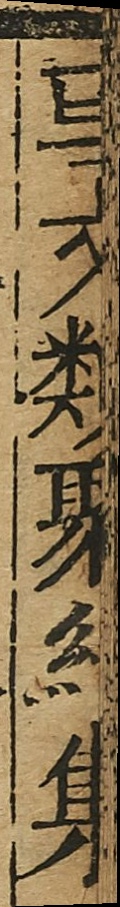事文類聚續集
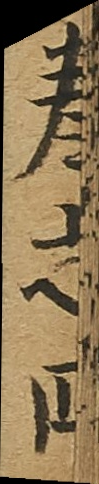卷之四
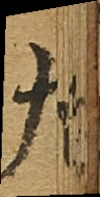九
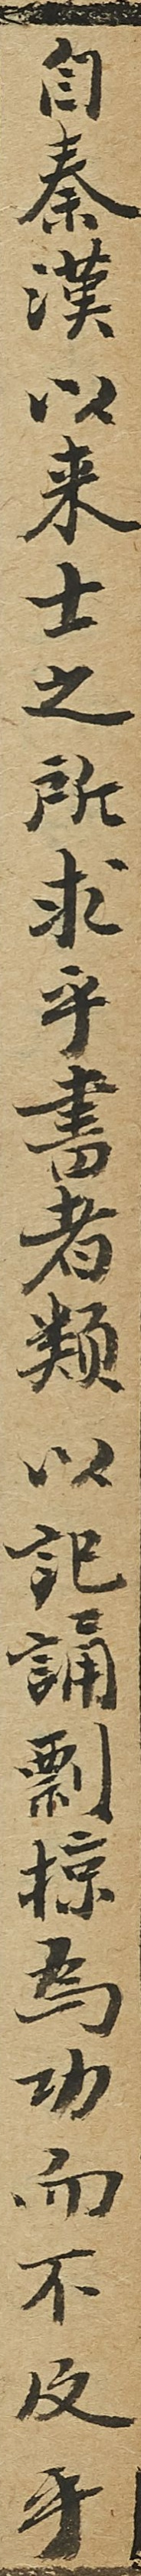自秦漢以来士之所求乎書者類以記誦剽掠為功而不及乎
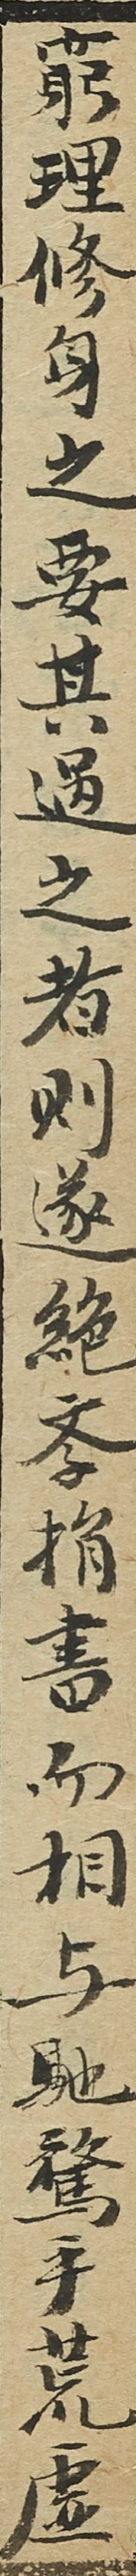窮理修身之要其過之者則遂絶學捐書而相與馳騖乎荒虛
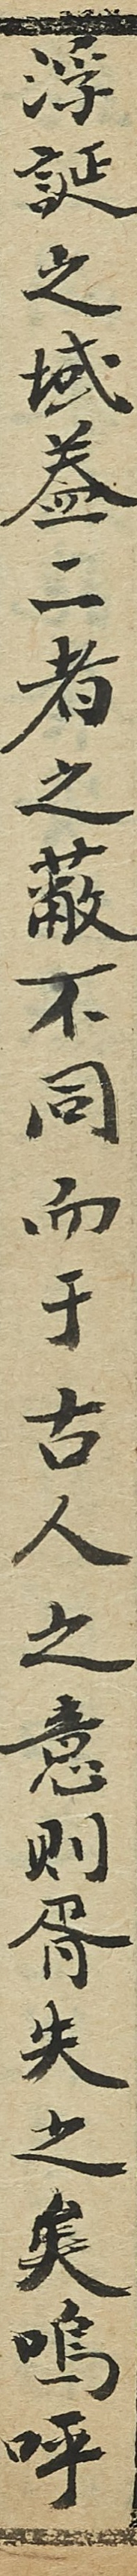浮誕之域蓋二者之蔽不同而于古人之意則胥失之矣嗚呼
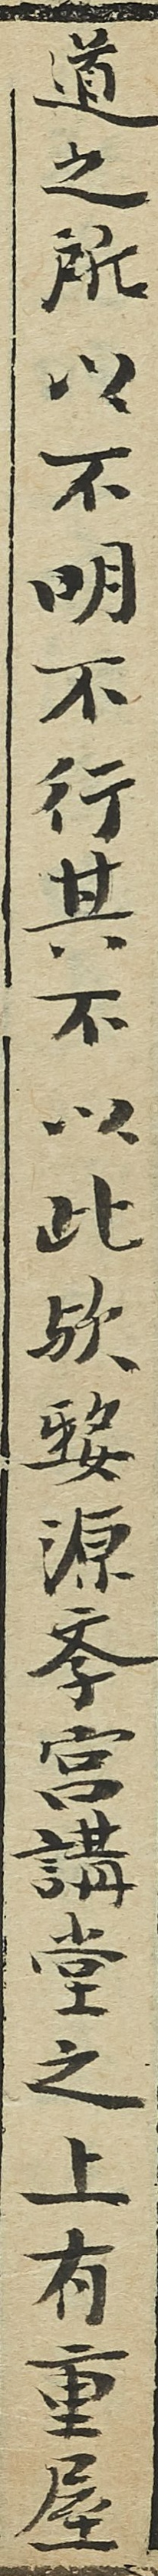道之所以不明不行其不以此歟婺源學宫講堂之上有重屋
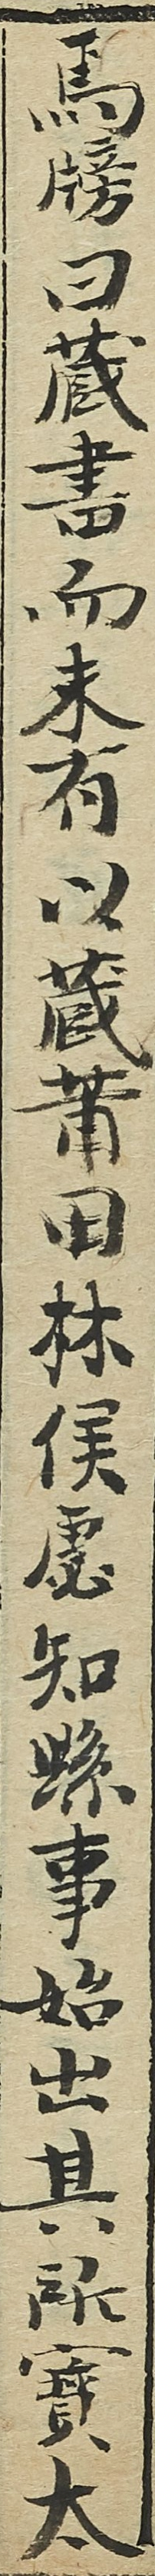焉牓曰藏書而未有以藏莆田林侯虙知縣事始出其所寳太
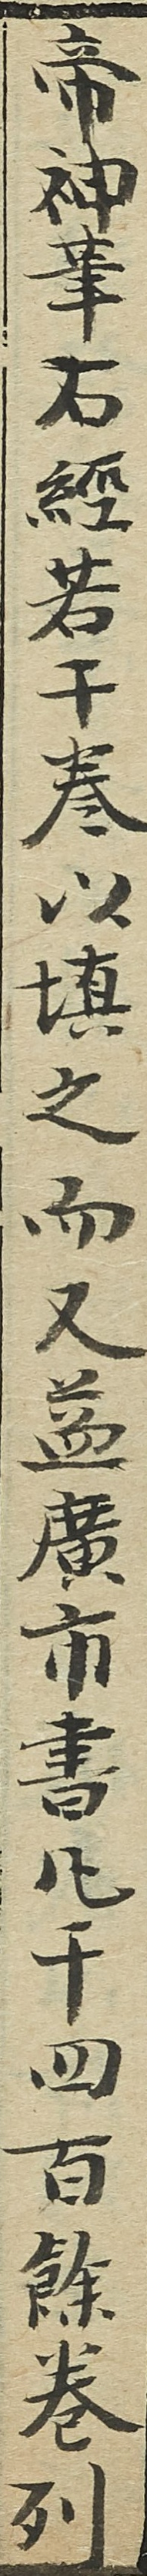帝神筆石經若干卷以填之而又益廣市書凡千四百餘卷列
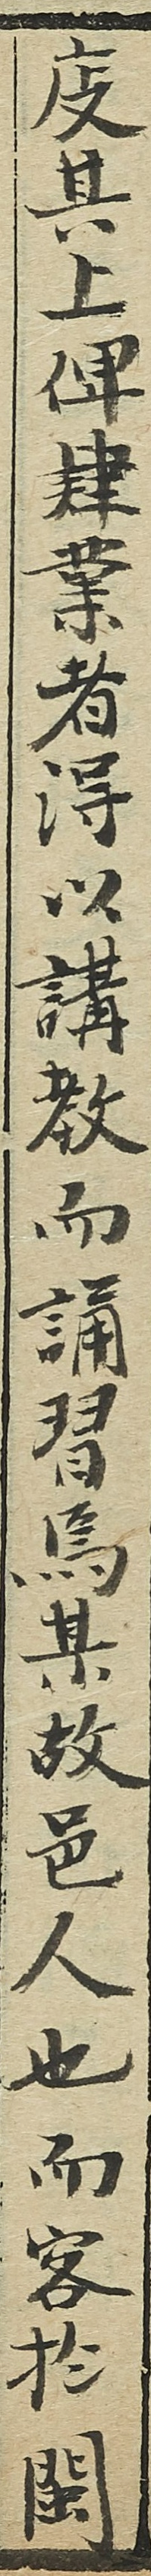庋其上俾肄業者得以講教而誦習焉某故邑人也而客於閩
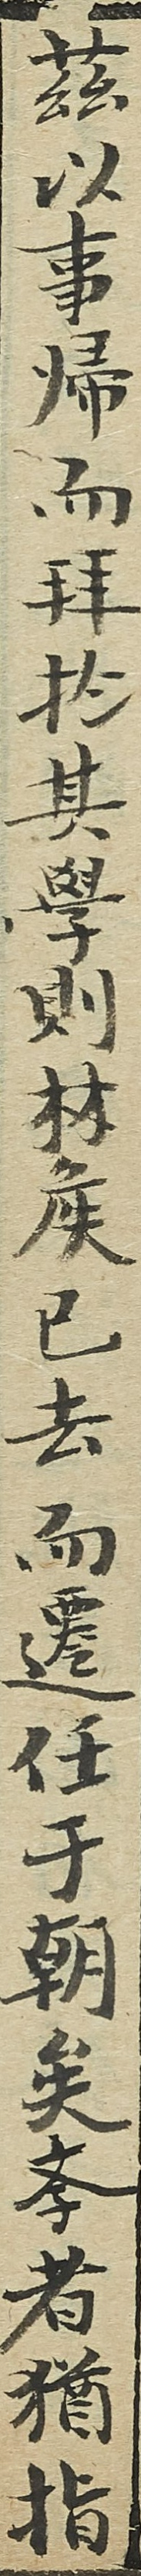茲以事歸而拜於其學則林侯已去而遷任于朝矣學者猶指
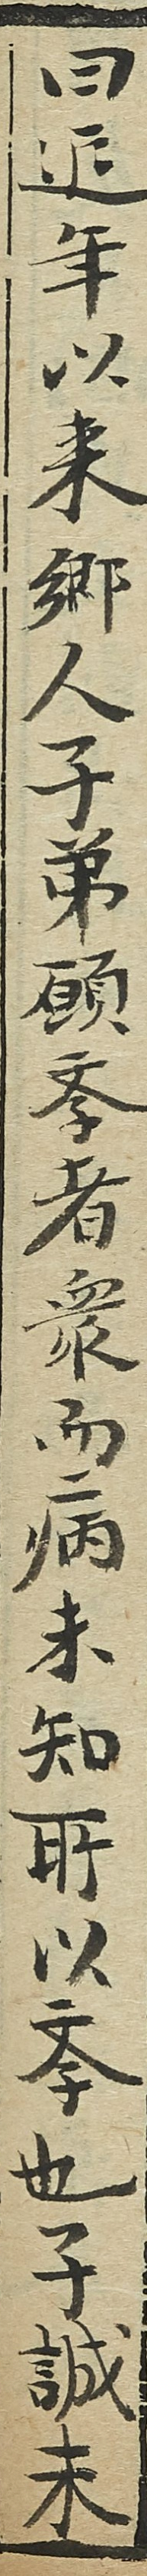曰近年以来鄉人子弟願學者衆而病未知所以學也子誠未
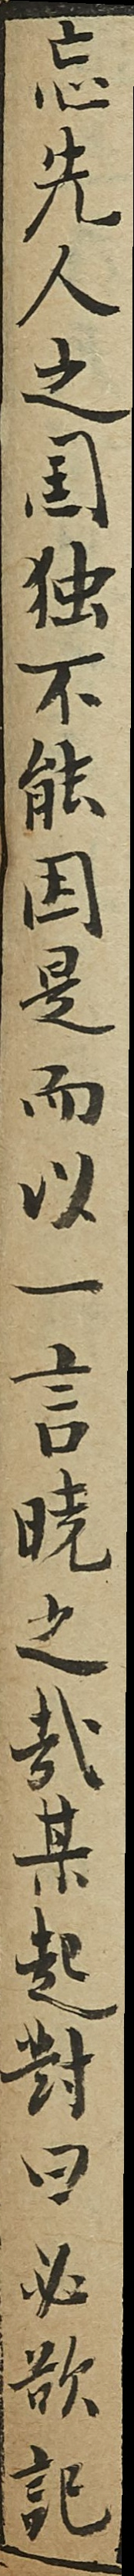忘先人之國獨不能因是而以一言曉之哉某起對曰必欲記
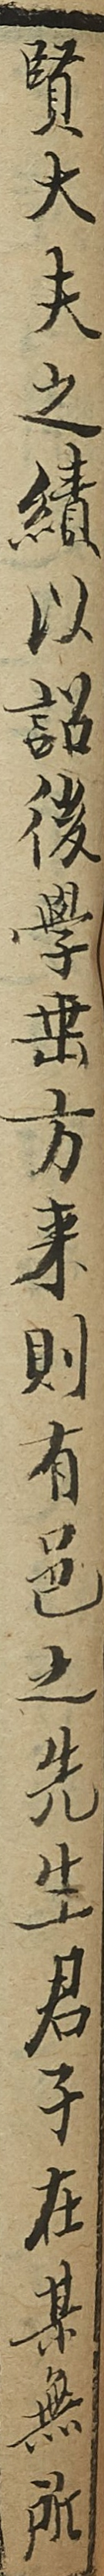賢大夫之績以詔後學垂方来則有邑之先生君子在某無所
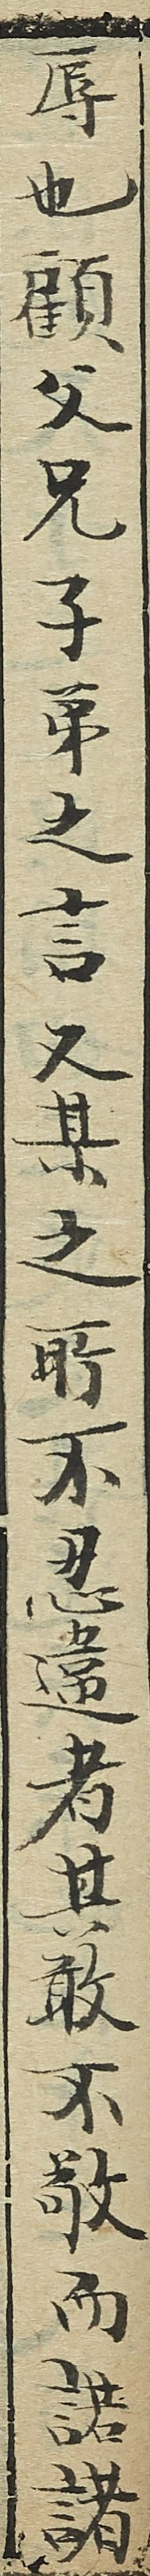辱也顧父兄子弟之言又某之所不忍違者其敢不敬而諾諸
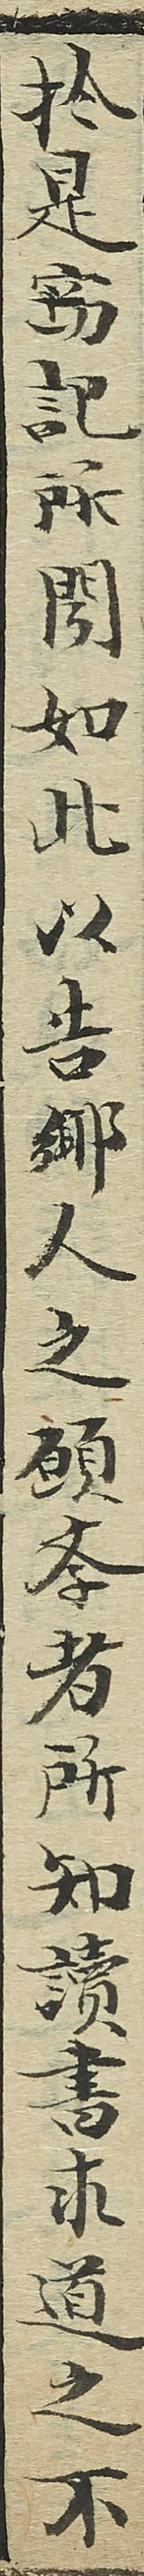於是竊記所聞如此以告鄉人之願學者所知讀書求道之不
